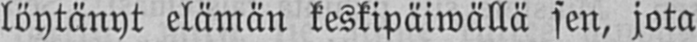löytänyt elämän keskipäiwällä sen, jota
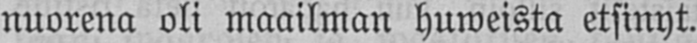nuorena oli maailman huweista etsinyt.
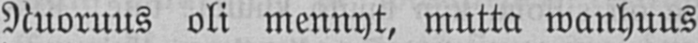Nuoruus oli mennyt, mutta wanhuus
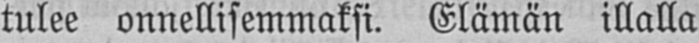tulee onnellisemmaksi. Elämän illalla
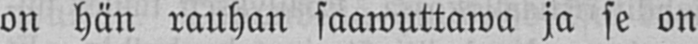on hän rauhan saawuttawa ja se on
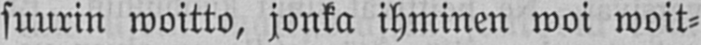suurin woitta, jonka ihminen woi woit-
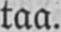taa.
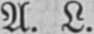A. L.
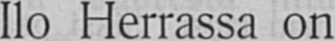Ilo Herrassa on vastamyrkkyä
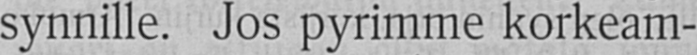synnille. Jos parimme korkeam-
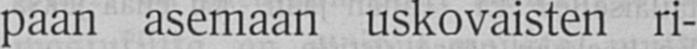paan asemaan uskovaisten ri-
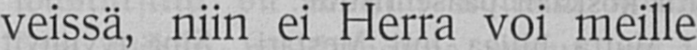veissä, niin ei Herra voi meille
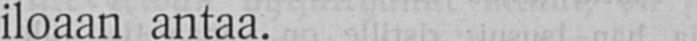iloaan antaa.
